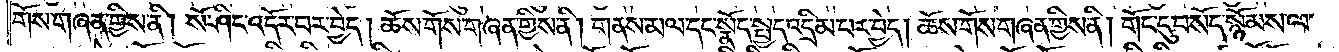གོས་གཞན་གྱིས་ནི། སོ་ཤིང་འདོར་བར་བྱེད། ཆོས་གོས་གཞན་གྱིས་ནི། གནས་མལ་དང་སྣོད་སྤྱད་འདྲིམ་པར་བྱེད། ཆོས་གོས་གཞན་གྱིས་ནི། གོང་དུ་བསོད་སྙོམས་ལ་
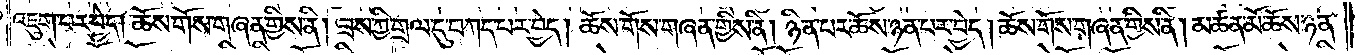འཇུག་པར་བྱེད། ཆོས་གོས་གཞན་གྱིས་ནི། ཟས་ཀྱི་གྲལ་དུ་བཀད་པར་བྱེད། ཆོས་གོས་གཞན་གྱིས་ནི། ཉིན་པར་ཆོས་ཉན་པར་བྱེད། ཆོས་གོས་གཞན་གྱིས་ནི། མཚན་མོ་ཆོས་ཉན་
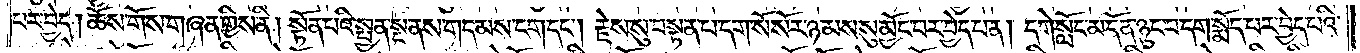པར་བྱེད། ཆོས་གོས་གཞན་གྱིས་ནི། སྟོན་པའི་སྤྱན་སྔ་ནས་གདམས་ངག་དང༌། རྗེས་སུ་བསྟན་པ་དག་སོ་སོར་ཉམས་སུ་མྱོང་བར་བྱེད་པ་ན། དགེ་སློང་མ་དོན་ཉུང་བ་དག་སྨོད་པར་བྱེད་པའི་
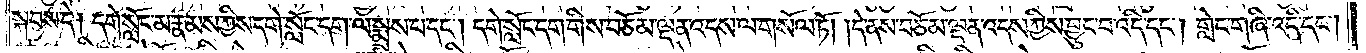སྐབས་དེ། དགེ་སློང་མ་རྣམས་ཀྱིས་དགེ་སློང་དག་ལ་སྨྲས་པ་དང༌། དགེ་སློང་དག་གིས་བཅོམ་ལྡན་འདས་ལ་གསོལ་ཏོ། །དེ་ནས་བཅོམ་ལྡན་འདས་ཀྱིས་བྱུང་བ་འདི་དང༌། གླེང་གཞི་འདི་དང༌།
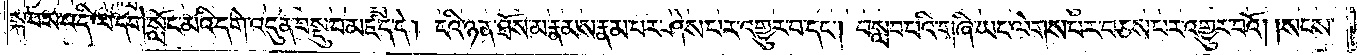སྐབས་འདི་ལ་དགེ་སློང་མའི་དགེ་འདུན་བསྡུ་བ་མཛད་དེ། ངའི་ཉན་ཐོས་མ་རྣམས་རྣམ་པར་ཤེས་པར་འགྱུར་བ་དང༌། བསླབ་པའི་གཞི་ཡང་ལེགས་པར་བཅས་པར་འགྱུར་བའོ། །སངས་
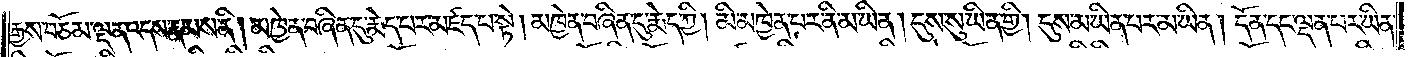རྒྱས་བཅོམ་ལྡན་འདས་རྣམས་ནི། མཁྱེན་བཞིན་དུ་རྨེད་པར་མཛད་པ་སྟེ། མཁྱེན་བཞིན་དུ་རྨེད་ཀྱི། མི་མཁྱེན་པར་ནི་མ་ཡིན། དུས་སུ་ཡིན་གྱི། དུས་མ་ཡིན་པར་མ་ཡིན། དོན་དང་ལྡན་པར་ཡིན་
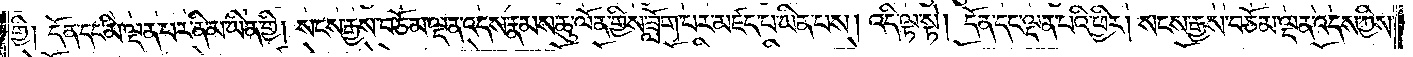གྱི། དོན་དང་མི་ལྡན་པར་ནི་མ་ཡིན་གྱི། སངས་རྒྱས་བཅོམ་ལྡན་འདས་རྣམས་ཆུ་ལོན་གྱིས་ཟློག་པར་མཛད་པ་ཡིན་པས། འདི་ལྟ་སྟེ། དོན་དང་ལྡན་པའི་ཕྱིར། སངས་རྒྱས་བཅོམ་ལྡན་འདས་ཀྱིས་
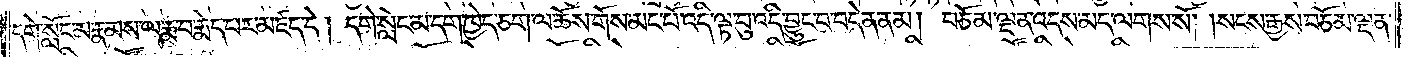དགེ་སློང་མ་རྣམས་ལ་རྨ་བ་རྨེད་པར་མཛད་དེ། དགེ་སློང་མ་དག་ཁྱེད་ཅག་ལ་ཆོས་གོས་མང་པོ་འདི་ལྟ་བུ་འདི་བྱུང་བ་བདེན་ནམ། བཅོམ་ལྡན་འདས་མད་ལགས་སོ། །སངས་རྒྱས་བཅོམ་ལྡན་
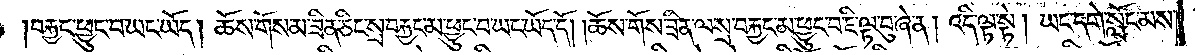བརྐྱང་ཕྱུང་བ་ཡང་ཡོད། ཆོས་གོས་མ་ཟིན་ཅིང་སྲ་བརྐྱང་མ་ཕྱུང་བ་ཡང་ཡོད་དོ། །ཆོས་གོས་ཟིན་ལ་སྲ་བརྐྱང་མ་ཕྱུང་བ་ཇི་ལྟ་བུ་ཞེ་ན། འདི་ལྟ་སྟེ། ཡང་དགེ་སློང་མས་
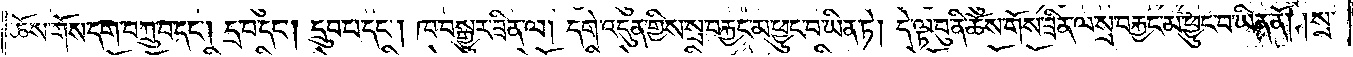ཆོས་གོས་དག་བཀྲུ་བ་དང༌། དྲ་བ་དང༌། དྲུབ་པ་དང༌། ཁ་བསྒྱུར་ཟིན་ལ། དགེ་འདུན་གྱིས་སྲ་བརྐྱང་མ་ཕྱུང་བ་ཡིན་ཏེ། དེ་ལྟ་བུ་ནི་ཆོས་གོས་ཟིན་ལ་སྲ་བརྐྱང་མ་ཕྱུང་བ་ཡིན་ནོ། །སྲ་
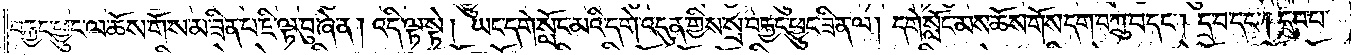བརྐྱང་ཕྱུང་ལ་ཆོས་གོས་མ་ཟིན་པ་ཇི་ལྟ་བུ་ཞེ་ན། འདི་ལྟ་སྟེ། ཡང་དགེ་སློང་མའི་དགེ་འདུན་གྱིས་སྲ་བརྐྱང་ཕྱུང་ཟིན་ལ། དགེ་སློང་མས་ཆོས་གོས་དག་བཀྲུ་བ་དང༌། དྲ་བ་དང༌། དྲུབ་པ་
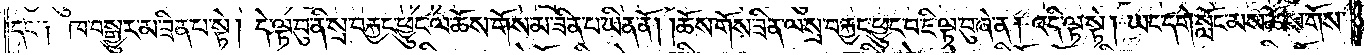དང་༑ ཁ་བསྒྱུར་མ་ཟིན་པ་སྟེ། དེ་ལྟ་བུ་ནི་སྲ་བརྐྱང་ཕྱུང་ལ་ཆོས་གོས་མ་ཟིན་པ་ཡིན་ནོ། །ཆོས་གོས་ཟིན་ལ་སྲ་བརྐྱང་ཕྱུང་བ་ཇི་ལྟ་བུ་ཞེ་ན། འདི་ལྟ་སྟེ། ཡང་དགེ་སློང་མས་ཆོས་གོས་
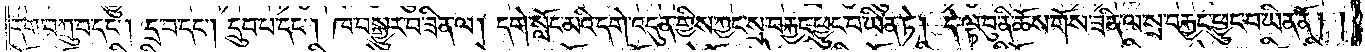དག་བཀྲུ་བ་དང༌། དྲ་བ་དང༌། དྲུབ་པ་དང༌། ཁ་བསྒྱུར་བ་ཟིན་ལ། དགེ་སློང་མའི་དགེ་འདུན་གྱིས་ཀྱང་སྲ་བརྐྱང་ཕྱུང་བ་ཡིན་ཏེ། དེ་ལྟ་བུ་ནི་ཆོས་གོས་ཟིན་ལ་སྲ་བརྐྱང་ཕྱུང་བ་ཡིན་ནོ། །
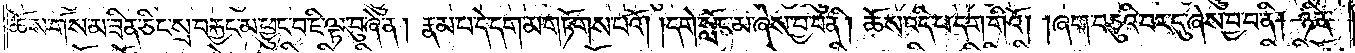ཆོས་གོས་མ་ཟིན་ཅིང་སྲ་བརྐྱང་མ་ཕྱུང་བ་ཇི་ལྟ་བུ་ཞེ་ན། རྣམ་པ་དེ་དག་མ་གཏོགས་པའོ། །དགེ་སློང་མ་ཞེས་བྱ་བ་ནི། ཆོས་འདི་པ་དག་གིའོ། །ཞག་བཅུའི་བར་དུ་ཞེས་བྱ་བ་ནི། ཉིན་
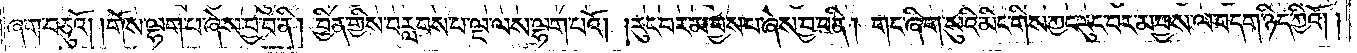ཞག་བཅུའོ། །གོས་ལྷག་པ་ཞེས་བྱ་བ་ནི། བྱིན་གྱིས་བརླབས་པ་ལྔ་ལས་ལྷག་པའོ། །རུང་བར་མ་བྱས་པ་ཞེས་བྱ་བ་ནི། གང་ཞིག་སུའི་མིང་གིས་ཀྱང་རུང་བར་མ་བྱས་ལ་བདག་ཉིད་ཀྱིའོ། །
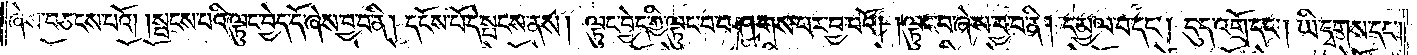ཞེས་བཅངས་པའོ། །སྤངས་པའི་ལྟུང་བྱེད་དོ་ཞེས་བྱ་བ་ནི། དངོས་པོ་དེ་སྤངས་ནས། ལྟུང་བྱེད་ཀྱི་ལྟུང་བ་བཤགས་པར་བྱ་བའོ། ལྟུང་བ་ཞེས་བྱ་བ་ནི། དམྱལ་བ་དང༌། དུད་འགྲོ་དང༌། ཡི་དྭགས་དང༌།
